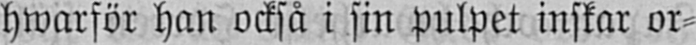hwarför han också i sin pulpet inskar or-
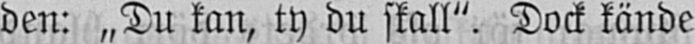den: „Du kan, ty du skall". Dock kände
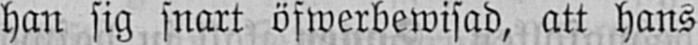han sig snart öfwerbewisad, att hans
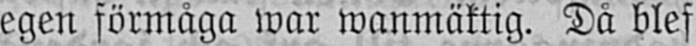egen förmåga war wanmäktig. Då blef
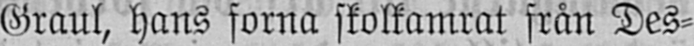Graul, hans forna skolkamrat från Des-
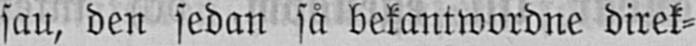sau, den sedan så bekantwordne direk-
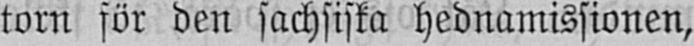torn för den sachsiska hednamissionen,
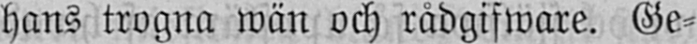hans trogna wän och rådgifware. Ge-
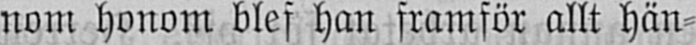nom honom blef han framför allt hän-
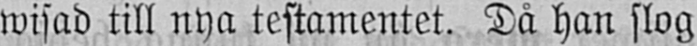wisad till nya testamentet. Då han slog
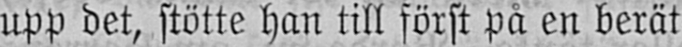upp det, stötte han till först på en berät-
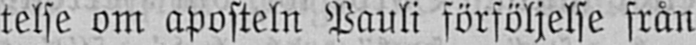telse om aposteln Pauli förföljelse från
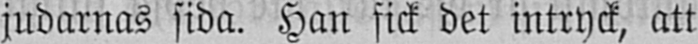judarnas sida. Han fick det intryck, att
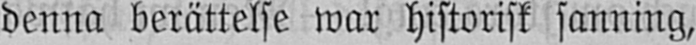denna berättelse war historisk sanning,
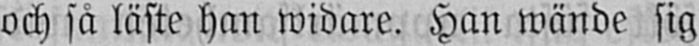och så läste han widare. Han wände sig
